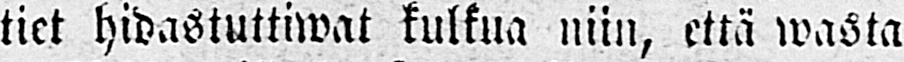tiet hidastuttiwat kulkua niin, että wasta
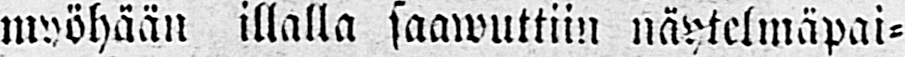myöhään illalla saawuttiin näytelmäpai-
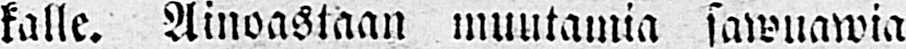kalle. Ainoastaan muutamia sawuawia
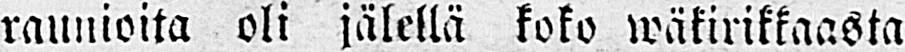raunioita oli jälellä koko wäkirikkaasta
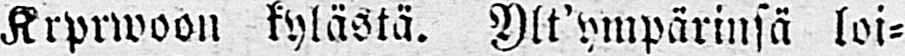Krprwoon kylästä. Ylt’ympärinsä loi-
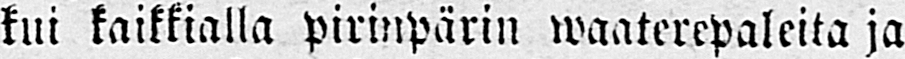kui kaikkialla pirinpärin waaterepaleita ja
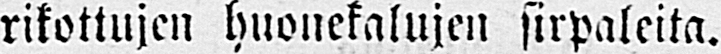rikottujen huonekalujen sirpaleita.
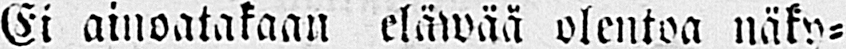Ei ainoatakaan eläwää olentoa näky-
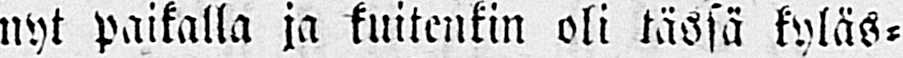nyt paikalla ja kuitenkin oli tässä kyläs-
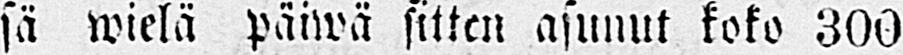sä wielä päiwä sitten asunut koko 300
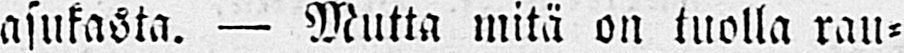asukasta. — Mutta mitä on tuolla rau-
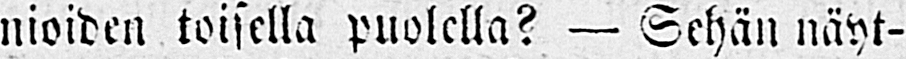nioiden toisella puolella? — Sehän näyt-
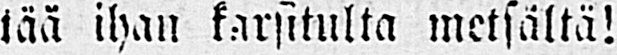tää ihan karsitulta metsältä!
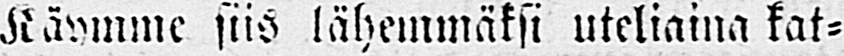Käymme siis lähemmäksi uteliaina kat-
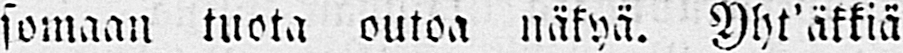somaan tuota outoa näkyä. Yht’äkkiä
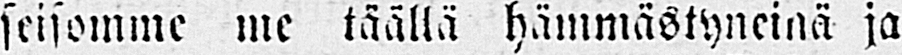seisomme me täällä hämmästyneinä ja
